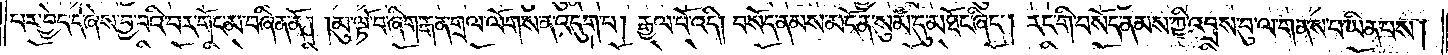པར་བྱེད་དེ་ཞེས་བྱ་བའི་བར་གོང་མ་བཞིན་ནོ། །མུ་ལྟོ་བ་ཞིག་རྒན་གྲལ་ལོགས་ན་འདུག་པ། རྒྱལ་པོ་འདི། བསོད་ནམས་མངོན་སུམ་དུ་མཐོང་ཞིང༌། རང་གི་བསོད་ནམས་ཀྱི་འབྲས་བུ་ལ་གནས་པ་ཡིན་པས།
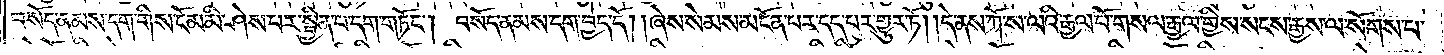བསོད་ནམས་དག་གིས་ངོམ་མི་ཤེས་པར་བྱིན་པ་དག་གཏོང༌། བསོད་ནམས་དག་བྱེད་དོ། །ཞེས་སེམས་མངོན་པར་དད་པར་གྱུར་ཏོ། །དེ་ནས་ཀོ་ས་ལའི་རྒྱལ་པོ་གསལ་རྒྱལ་གྱིས་སངས་རྒྱས་ལ་སོགས་པ་
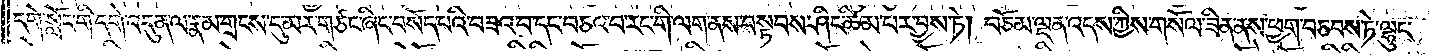དགེ་སློང་གི་དགེ་འདུན་ལ་རྣམ་གྲངས་དུ་མར་གཙང་ཞིང་བསོད་པའི་བཟའ་བ་དང་བཅའ་བ་རང་གི་ལག་ནས་བསྟབས་ཤིང་ཚིམ་པར་བྱས་ཏེ། བཅོམ་ལྡན་འདས་ཀྱིས་གསོལ་ཟིན་ནས་ཕྱག་བཅབས་ཏེ་ལྷུང་
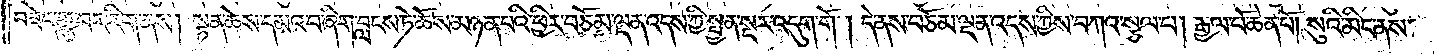བཟེད་གྱུ་བར་རིག་ནས། སྟན་ཆེས་དམའ་བ་ཞིག་བླངས་ཏེ་ཆོས་མཉན་པའི་ཕྱིར་བཅོམ་ལྡན་འདས་ཀྱི་སྤྱན་སྔར་འདུག་གོ །དེ་ནས་བཅོམ་ལྡན་འདས་ཀྱིས་བཀའ་སྩལ་པ། རྒྱལ་པོ་ཆེན་པོ། སུའི་མིང་ནས་
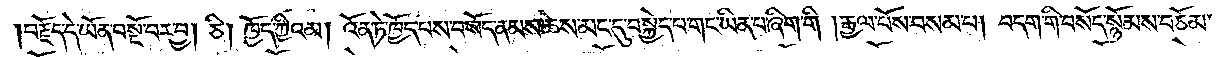བརྗོད་དེ་ཡོན་བསྔོ་བར་བྱ། ཅི། ཁྱོད་ཀྱིའམ། འོན་ཏེ་ཁྱོད་པས་བསོད་ནམས་ཆེས་མང་དུ་བསྐྱེད་པ་གང་ཡིན་པ་ཞིག་གི །རྒྱལ་པོས་བསམ་པ། བདག་གི་བསོད་སྙོམས་བཅོམ་
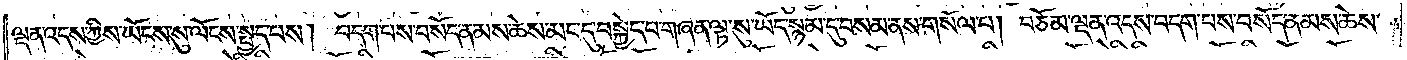ལྡན་འདས་ཀྱིས་ཡོངས་སུ་ལོངས་སྤྱད་པས། བདག་པས་བསོད་ནམས་ཆེས་མང་དུ་བསྐྱེད་པ་གཞན་ལྟ་སུ་ཡོད་སྙམ་དུ་བསམ་ནས་གསོལ་པ། བཅོམ་ལྡན་འདས་བདག་པས་བསོད་ནམས་ཆེས་
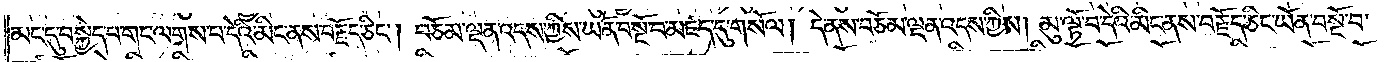མང་དུ་བསྐྱེད་པ་གང་ལགས་པ་དེའི་མིང་ནས་བརྗོད་ཅིང༌། བཅོམ་ལྡན་འདས་ཀྱིས་ཡོན་བསྔོ་བ་མཛད་དུ་གསོལ། དེ་ནས་བཅོམ་ལྡན་འདས་ཀྱིས། མུ་ལྟོ་བ་དེའི་མིང་ནས་བརྗོད་ཅིང་ཡོན་བསྔོ་བ་
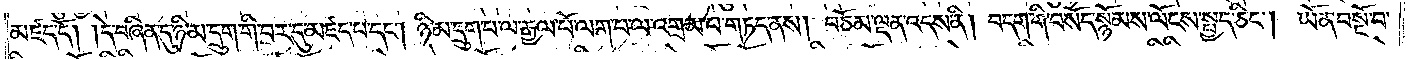མཛད་དོ། །དེ་བཞིན་དུ་ཉི་མ་དྲུག་གི་བར་དུ་མཛད་པ་དང༌། ཉི་མ་དྲུག་པ་ལ་རྒྱལ་པོ་ལག་པ་ལ་འགྲམ་པ་གཏད་ནས། བཅོམ་ལྡན་འདས་ནི། བདག་གི་བསོད་སྙོམས་ལོངས་སྤྱད་ཅིང༌། ཡོན་བསྔོ་བ་
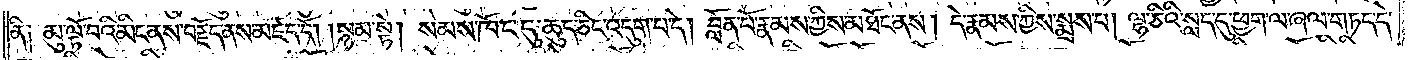ནི༑ མུ་ལྟོ་བའི་མིང་ནས་བརྗོད་ནས་མཛད་དོ། །སྙམ་སྟེ། སེམས་ཁོང་དུ་ཆུད་ཅིང་འདུག་པ་དེ། བློན་པོ་རྣམས་ཀྱིས་མཐོང་ནས། དེ་རྣམས་ཀྱིས་སྨྲས་པ། ལྷ་ཅིའི་སླད་དུ་ཕྱག་ལ་ཞལ་གཏད་དེ་
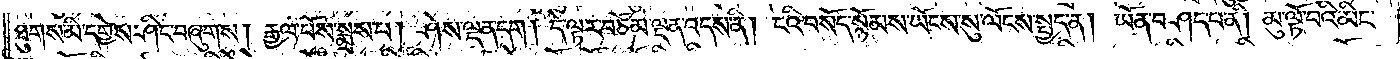ཐུགས་མི་དགྱེས་ཤིང་བཞུགས། རྒྱལ་པོས་སྨྲས་པ། ཤེས་ལྡན་དག། དེ་ལྟར་བཅོམ་ལྡན་འདས་ནི། ངའི་བསོད་སྙོམས་ཡོངས་སུ་ལོངས་སྤྱད་ན། ཡོན་བཤད་པ་ནི། མུ་ལྟོ་བའི་མིང་
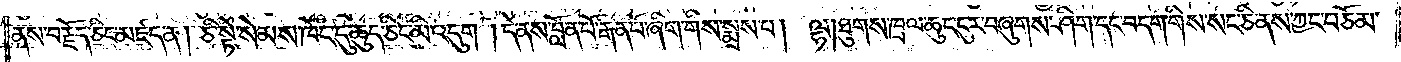ནས་བརྗོད་ཅིང་མཛད་ན། ཅི་སྟེ་སེམས་ཁོང་དུ་ཆུད་ཅིང་མི་འདུག །དེ་ནས་བློན་པོ་རྒན་པོ་ཞིག་གིས་སྨྲས་པ། ལྷ། ཐུགས་ཁྲལ་ཆུང་ངུར་བཞུགས་ཤིག་དང་བདག་གིས་སང་ཅི་ནས་ཀྱང་བཅོམ་
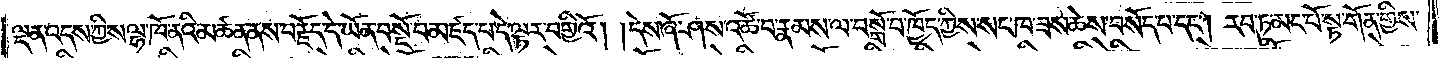ལྡན་འདས་ཀྱིས་ལྷ་ཁོ་ནའི་མཚན་ནས་བརྗོད་དེ་ཡོན་བསྔོ་བ་མཛད་པ་དེ་ལྟར་བགྱིའོ། །དེས་ཞོ་ཤས་འཚོ་བ་རྣམས་ལ་བསྒོ་བ་ཁྱོད་ཀྱིས་སང་ཁ་ཟས་ཆེས་བསོད་པ་དང༌། རབ་ཏུ་མང་པོ་སྟ་གོན་གྱིས་
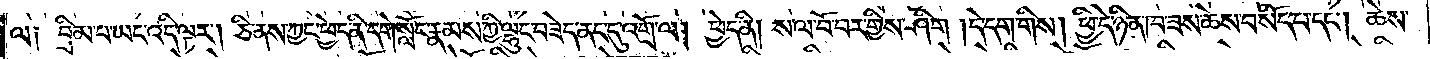ལ༑ བྲིམ་པ་ཡང་འདི་ལྟར། ཅི་ནས་ཀྱང་ཕྱེད་ནི་དགེ་སློང་རྣམས་ཀྱི་ལྷུང་བཟེད་ནང་དུ་འགྲོ་ལ། ཕྱེད་ནི། ས་ལ་བོ་བར་གྱིས་ཤིག །དེ་དག་གིས། ཕྱི་དེ་ཉིན་ཁ་ཟས་ཆེས་བསོད་པ་དང༌། ཆེས་
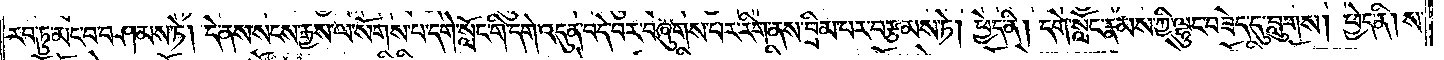རབ་ཏུ་མང་བ་བཤམས་ཏེ། དེ་ནས་སངས་རྒྱས་ལ་སོགས་པ་དགེ་སློང་གི་དགེ་འདུན་བདེ་བར་བཞུགས་པར་རིག་ནས་བྲིམ་པར་བརྩམས་ཏེ། ཕྱེད་ནི། དགེ་སློང་རྣམས་ཀྱི་ལྷུང་བཟེད་དུ་བླུགས། ཕྱེད་ནི། ས་
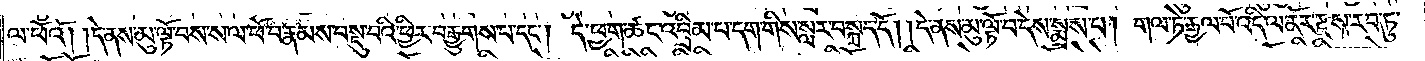ལ་ཕོའོ། །དེ་ནས་མུ་ལྟོ་བས་ས་ལ་ཕོ་བ་རྣམས་བསྡུ་བའི་ཕྱིར་བརྒྱུགས་པ་དང༌། དེ་ཕྱག་ཚང་འབྲིམ་པ་དག་གིས་སླར་བསྐྲད་དོ། །དེ་ནས་མུ་ལྟོ་བ་དེས་སྨྲས་པ། གལ་ཏེ་རྒྱལ་པོ་འདི་ལ་ནོར་རྫས་རབ་ཏུ་
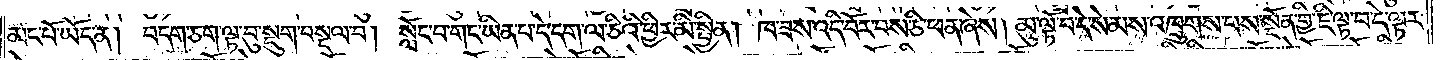མང་པོ་ཡོད་ན། བདག་ཅག་ལྟ་བུ་སྡུག་བསྔལ་བ། སློང་བ་གང་ཡིན་པ་དེ་དག་ལ་ཅིའི་ཕྱིར་མི་སྦྱིན། ཁ་ཟས་འདི་བོར་བས་ཅི་ཕན་ཞེས། མུ་ལྟོ་བ་དེ་སེམས་འཁྲུགས་པས་སྔོན་གྱི་ཇི་ལྟ་བ་དེ་ལྟར་
